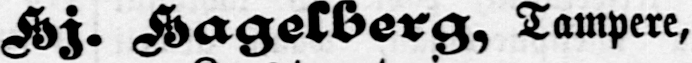Hj. Hagelberg, Tampere,
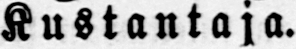Kustantaja.
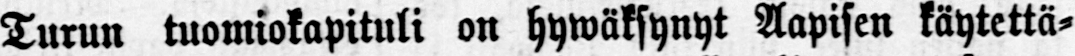Turun tuomiokapituli on hywäksynyt Aapisen käytettä-
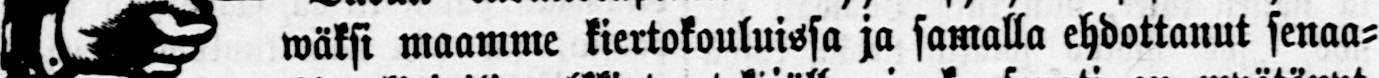wäksi maamme kiertokouluissa ja samalla ehdottanut senaa-
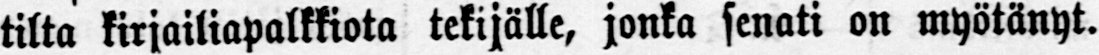tilta kirjailiapalkkiota tekijälle, jonka senati on myötänyt.
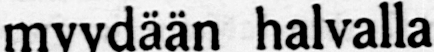myydään halvalla
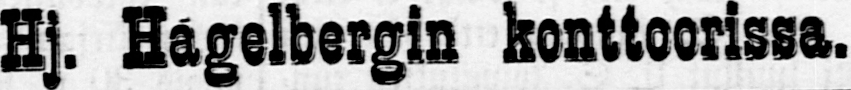Hj. Hagelbergin Konttoorissa.
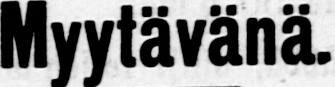Myytävänä.
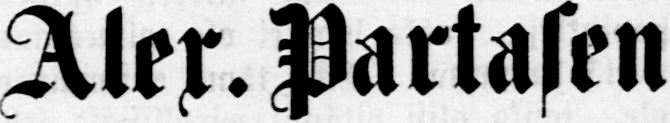Alex. Partasen
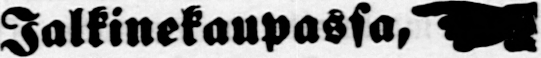Jalkinekaupassa,
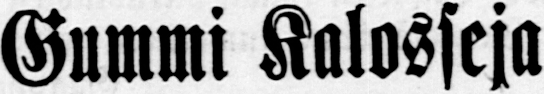Gummi Kalosseja
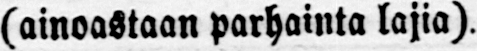(ainoastaan parhainta lajia).
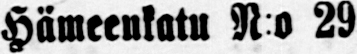Hämeenkatu N:o 29
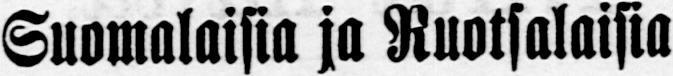Suomalaisia ja Ruotsalaisia
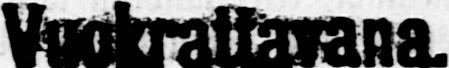Vuokrattavana.
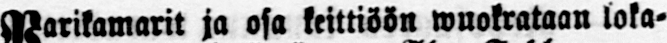Parikamarit ja osa keittiöin wuokrataan loka-
